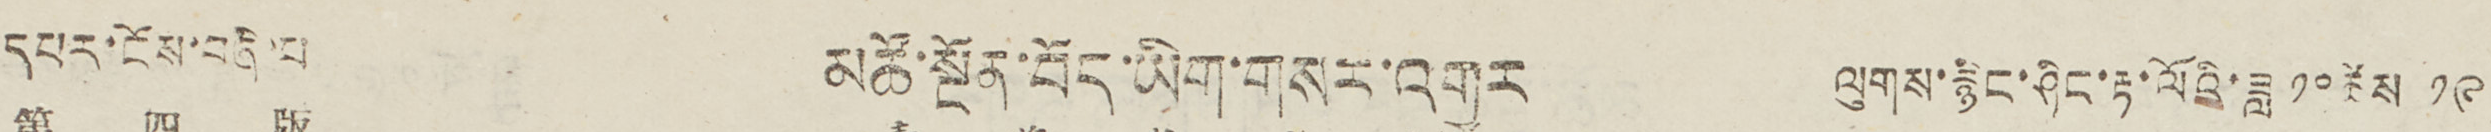དཔར་ངོས་བཞི་པ མཚོ་སྔོན་བོད་ཡིག་གསར་འགྱུར ལུགས་རྙིང་ཤིང་རྟ་ལོའི་ཟླ ༡༠ཚེས ༡༩
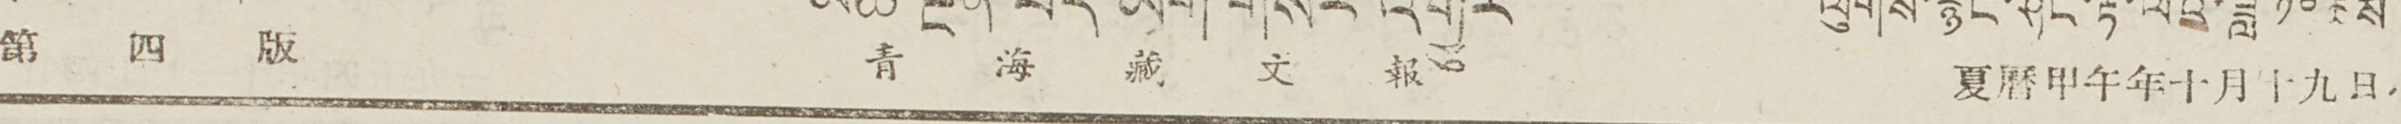第 四 版 青 海 藏 文 報 夏曆甲午年十月十九日
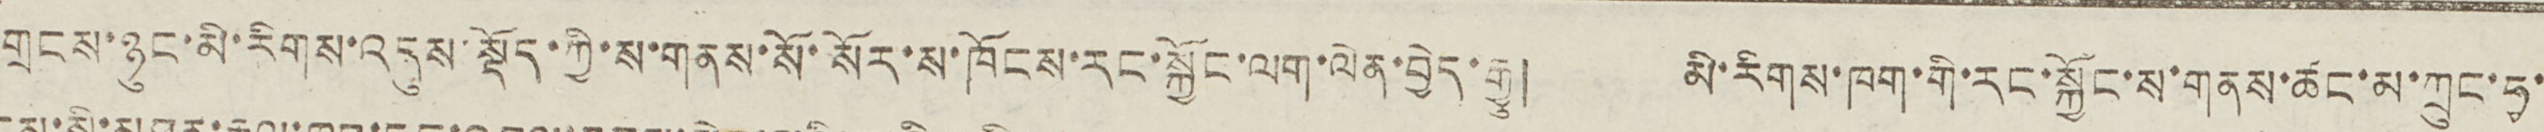གྲངས་ཉུང་མི་རིགས་འདུས་སྡོད་ཀྱི་ས་གནས་སོ་སོར་ས་ཁོངས་རང་སྐྱོང་ལག་ལེན་བྱེད་རྒྱུ། མི་རིགས་ཁག་གི་རང་སྐྱོང་ས་གནས་ཚང་མ་ཀྲུང་ཧྭ་
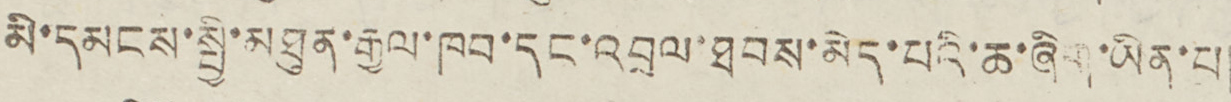མི་དམངས་སྤྱི་མཐུན་རྒྱལ་ཁབ་དང་འབྲལ་ཐབས་མེད་པའི་ཆ་ཞིག་ཡིན་པ།
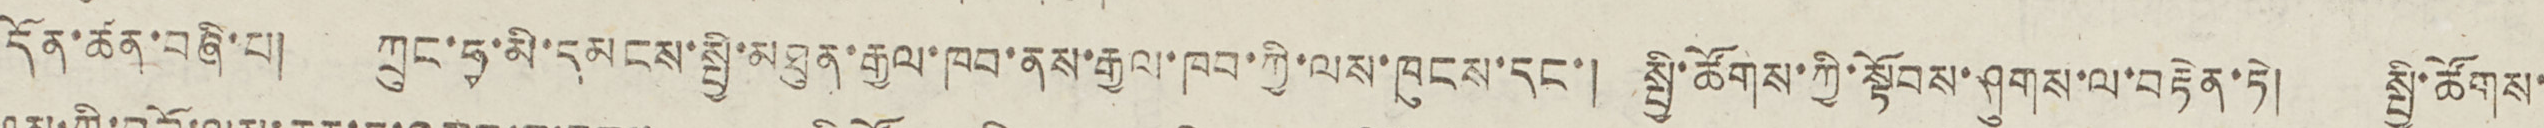དོན་ཚན་བཞི་པ། ཀྲུང་ཧྭ་མི་དམངས་སྤྱི་མཐུན་རྒྱལ་ཁབ་ནས་རྒྱལ་ཁབ་ཀྱི་ལས་ཁུངས་དང་། སྤྱི་ཚོགས་ཀྱི་སྟོབས་ཤུགས་ལ་བརྟེན་ཏེ། སྤྱི་ཚོགས་
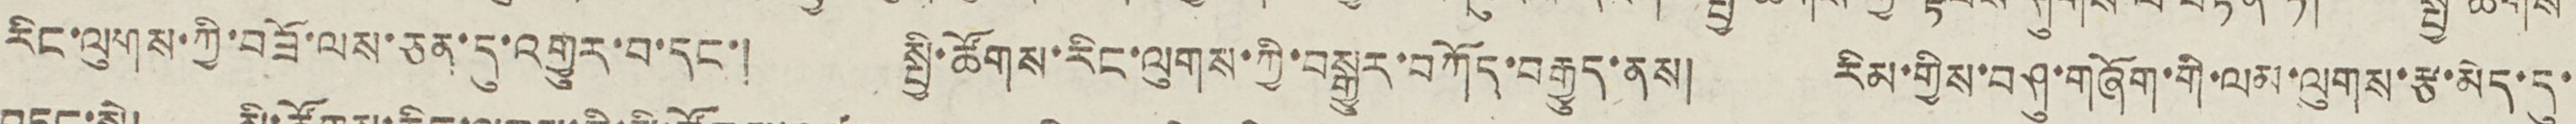རིང་ལུགས་ཀྱི་བཟོ་ལས་ཅན་དུ་འགྱུར་བ་དང་། སྤྱི་ཚོགས་རིང་ལུགས་ཀྱི་བསྒྱུར་བཀོད་བརྒྱུད་ནས། རིམ་གྱིས་བཤུ་གཞོག་གི་ལམ་ལུགས་རྩ་མེད་དུ་
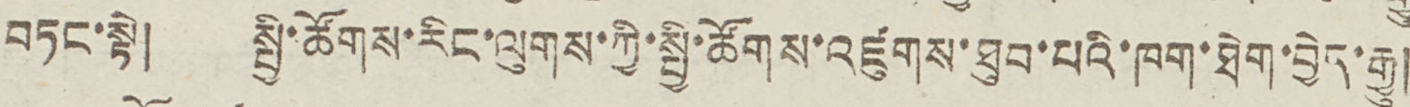བཏང་སྟེ། སྤྱི་ཚོགས་རིང་ལུགས་ཀྱི་སྤྱི་ཚོགས་འཛུགས་ཐུབ་པའི་ཁག་ཐེག་བྱེད་རྒྱུ།
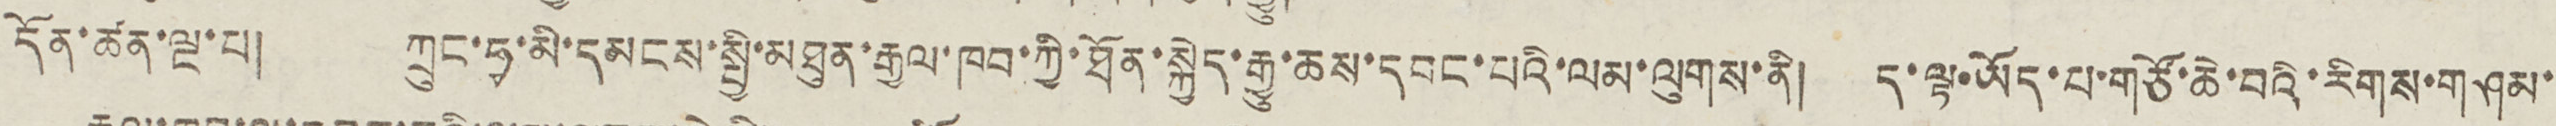དོན་ཚན་ལྔ་པ། ཀྲུང་ཧྭ་མི་དམངས་སྤྱི་མཐུན་རྒྱལ་ཁབ་ཀྱི་ཐོན་སྐྱེད་རྒྱུ་ཆས་དབང་པའི་ལམ་ལུགས་ནི། ད་ལྟ་ཡོད་པ་གཙོ་ཆེ་བའི་རིགས་གཤམ་
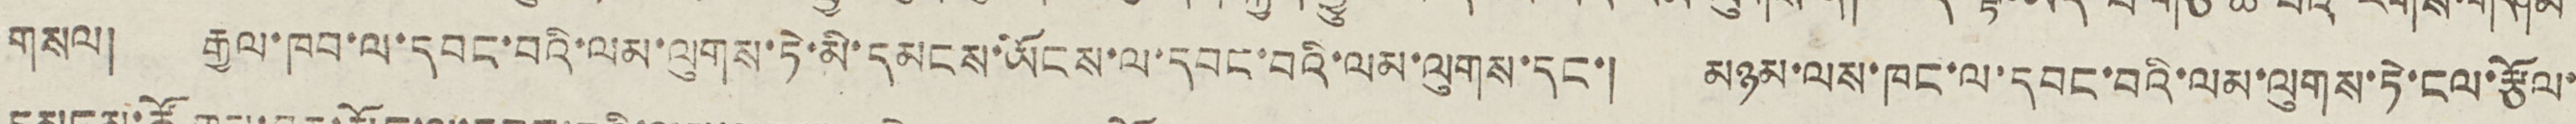གསལ། རྒྱལ་ཁབ་ལ་དབང་བའི་ལམ་ལུགས་ཏེ་མི་དམངས་ཡོངས་ལ་དབང་བའི་ལམ་ལུགས་དང་། མཉམ་ལས་ཁང་ལ་དབང་བའི་ལམ་ལུགས་ཏེ་ངལ་རྩོལ་
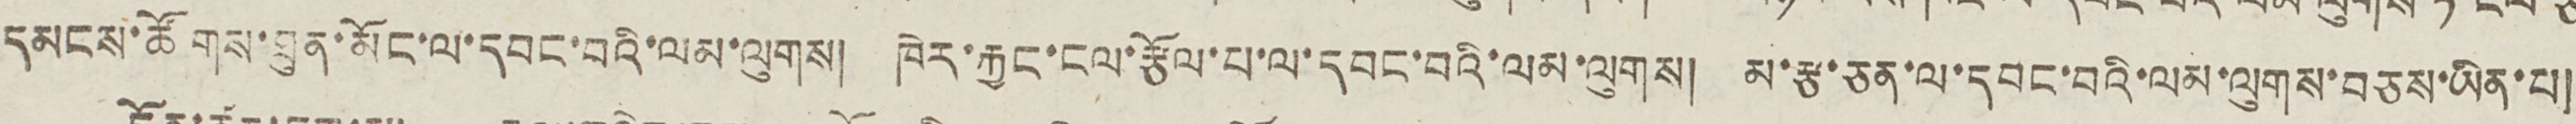དམངས་ཚོགས་ཐུན་མོང་ལ་དབང་བའི་ལམ་ལུགས། ཁེར་རྐྱང་ངལ་རྩོལ་པ་ལ་དབང་བའི་ལམ་ལུགས། མ་རྩ་ཅན་ལ་དབང་བའི་ལམ་ལུགས་བཅས་ཡིན་པ།
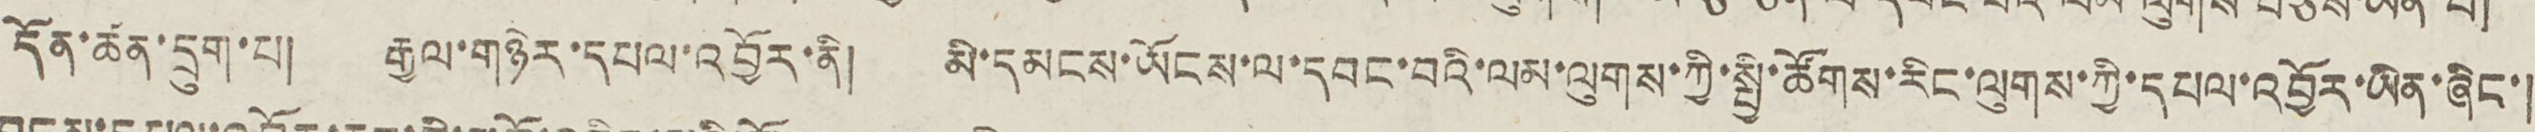དོན་ཚན་དྲུག་པ། རྒྱལ་གཉེར་དཔལ་འབྱོར་ནི། མི་དམངས་ཡོངས་ལ་དབང་བའི་ལམ་ལུགས་ཀྱི་སྤྱི་ཚོགས་རིང་ལུགས་ཀྱི་དཔལ་འབྱོར་ཡིན་ཞིང་།
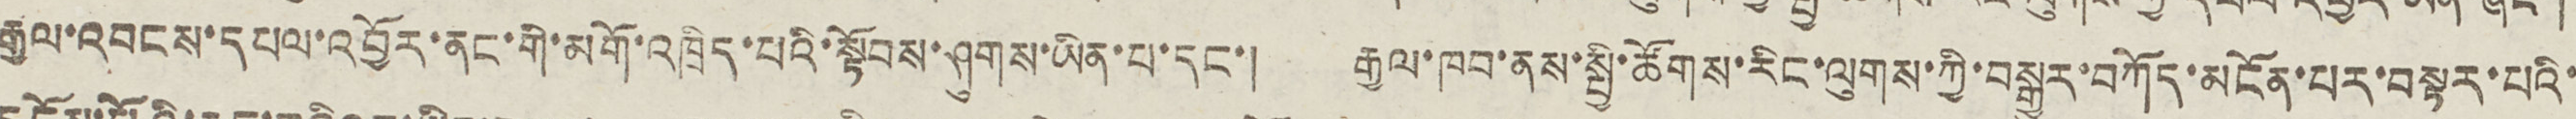རྒྱལ་འབངས་དཔལ་འབྱོར་ནང་གི་མགོ་འཁྲིད་པའི་སྟོབས་ཤུགས་ཡིན་པ་དང་། རྒྱལ་ཁབ་ནས་སྤྱི་ཚོགས་རིང་ལུགས་ཀྱི་བསྒྱུར་བཀོད་མངོན་པར་བསྟར་པའི་
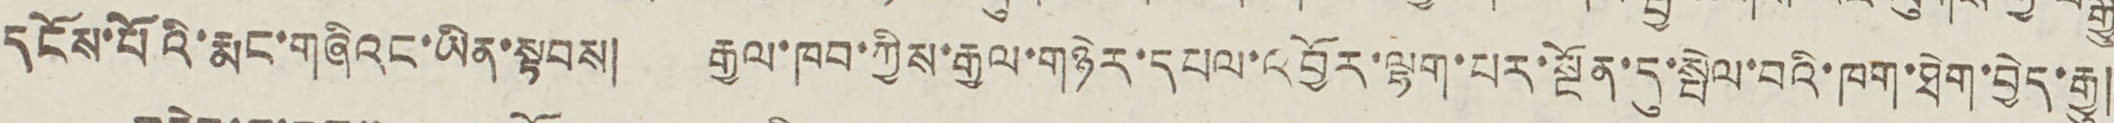དངོས་པོའི་རྨང་གཞིའང་ཡིན་སྟབས། རྒྱལ་ཁབ་ཀྱིས་རྒྱལ་གཉེར་དཔལ་འབྱོར་ལྷག་པར་སྔོན་དུ་སྤེལ་བའི་ཁག་ཐེག་བྱེད་རྒྱུ།
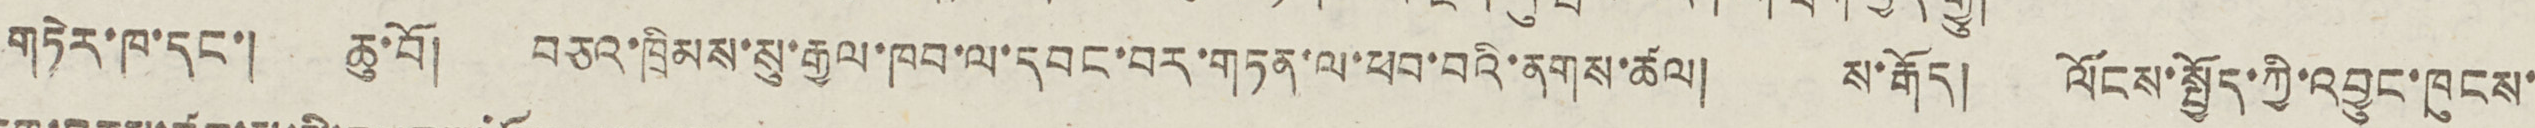གཏེར་ཁ་དང་། ཆུ་བོ། བཅའ་ཁྲིམས་སུ་རྒྱལ་ཁབ་ལ་དབང་བར་གཏན་ལ་ཕབ་བའི་ནགས་ཚལ། ས་རྒོད། ལོངས་སྤྱོད་ཀྱི་འབྱུང་ཁུངས་
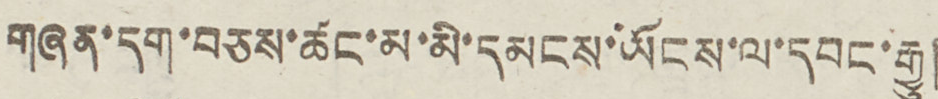གཞན་དག་བཅས་ཚང་མ་མི་དམངས་ཡོངས་ལ་དབང་རྒྱུ།
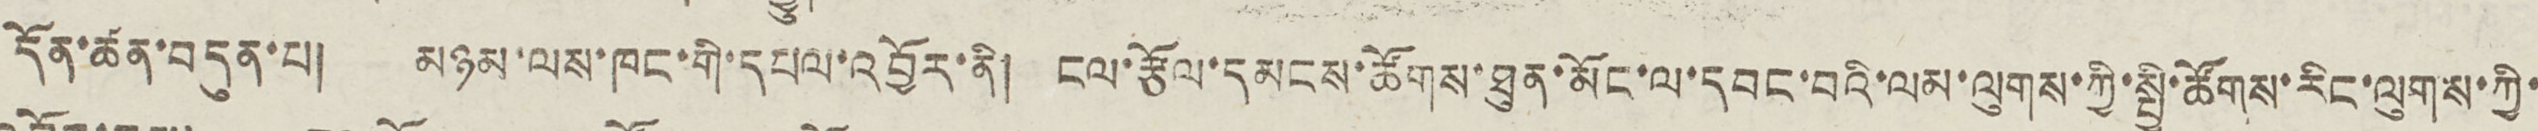དོན་ཚན་བདུན་པ། མཉམ་ལས་ཁང་གི་དཔལ་འབྱོར་ནི། ངལ་རྩོལ་དམངས་ཚོགས་ཐུན་མོང་ལ་དབངས་བའི་ལམ་ལུགས་ཀྱི་སྤྱི་ཚོགས་རིང་ལུགས་ཀྱི་
